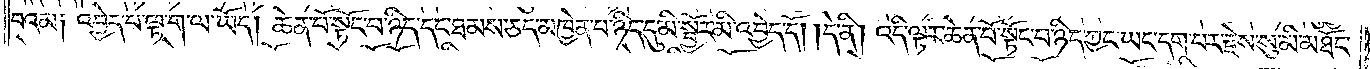བའམ༑ འབྱེད་པ་ལྟ་ག་ལ་ཡོད། ཆེན་པོ་སྟོང་པ་ཉིད་དང་ཐམས་ཅད་མཁྱེན་པ་ཉིད་དུ་མི་སྦྱོར་མི་འབྱེད་དོ། །དེ་ནི། འདི་ལྟར་ཆེན་པོ་སྟོང་པ་ཉིད་ཀྱང་ཡང་དག་པར་རྗེས་སུ་མི་མཐོང་
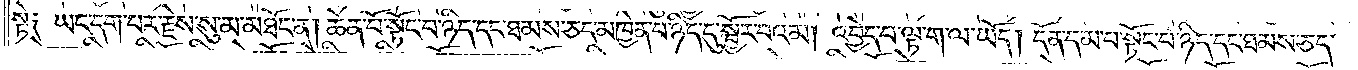སྟེ༑ ཡང་དག་པར་རྗེས་སུ་མ་མཐོང་ན། ཆེན་པོ་སྟོང་པ་ཉིད་དང་ཐམས་ཅད་མཁྱེན་པ་ཉིད་དུ་སྦྱོར་བའམ། འབྱེད་པ་ལྟ་ག་ལ་ཡོད། དོན་དམ་པ་སྟོང་པ་ཉིད་དང་ཐམས་ཅད་
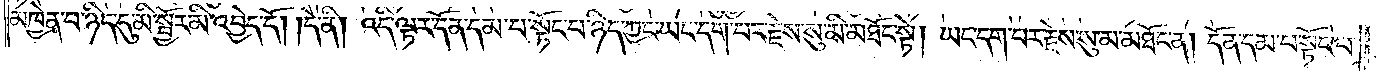མཁྱེན་པ་ཉིད་དུ་མི་སྦྱོར་མི་འབྱེད་དོ། །དེ་ནི། འདི་ལྟར་དོན་དམ་པ་སྟོང་པ་ཉིད་ཀྱང་ཡང་དག་པར་རྗེས་སུ་མི་མཐོང་སྟེ། ཡང་དག་པར་རྗེས་སུ་མ་མཐོང་ན། དོན་དམ་པ་སྟོང་པ་
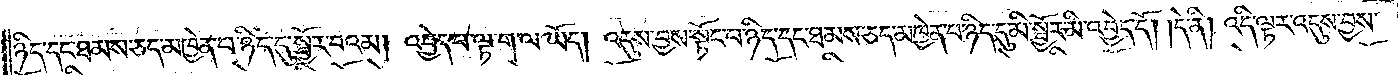ཉིད་དང་ཐམས་ཅད་མཁྱེན་པ་ཉིད་དུ་སྦྱོར་བའམ། འབྱེད་པ་ལྟ་ག་ལ་ཡོད། འདུས་བྱས་སྟོང་པ་ཉིད་དང་ཐམས་ཅད་མཁྱེན་པ་ཉིད་དུ་མི་སྦྱོར་མི་འབྱེད་དོ། །དེ་ནི། འདི་ལྟར་འདུས་བྱས་
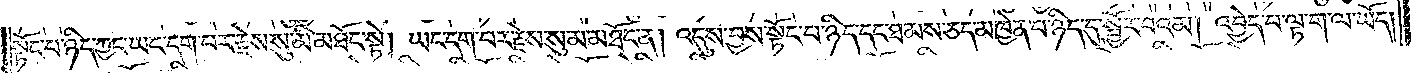སྟོང་པ་ཉིད་ཀྱང་ཡང་དག་པར་རྗེས་སུ་མི་མཐོང་སྟེ། ཡང་དག་པར་རྗེས་སུ་མ་མཐོང་ན། འདུས་བྱས་སྟོང་པ་ཉིད་དང་ཐམས་ཅད་མཁྱེན་པ་ཉིད་དུ་སྦྱོར་བའམ། འབྱེད་པ་ལྟ་ག་ལ་ཡོད།
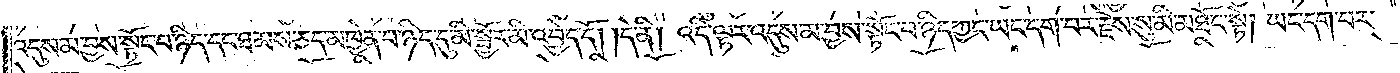འདུས་མ་བྱས་སྟོང་པ་ཉིད་དང་ཐམས་ཅད་མཁྱེན་པ་ཉིད་དུ་མི་སྦྱོར་མི་འབྱེད་དོ། །དེ་ནི། འདི་ལྟར་འདུས་མ་བྱས་སྟོང་པ་ཉིད་ཀྱང་ཡང་དག་པར་རྗེས་སུ་མི་མཐོང་སྟེ། ཡང་དག་པར་
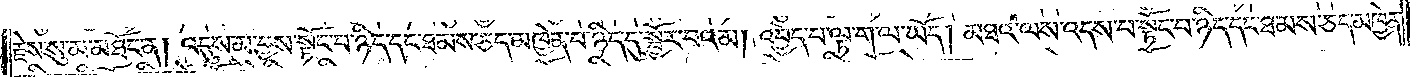རྗེས་སུ་མ་མཐོང་ན། འདུས་མ་བྱས་སྟོང་པ་ཉིད་དང་ཐམས་ཅད་མཁྱེན་པ་ཉིད་དུ་སྦྱོར་བའམ། འབྱེད་པ་ལྟ་ག་ལ་ཡོད། མཐའ་ལས་འདས་པ་སྟོང་པ་ཉིད་དང་ཐམས་ཅད་མཁྱེན་
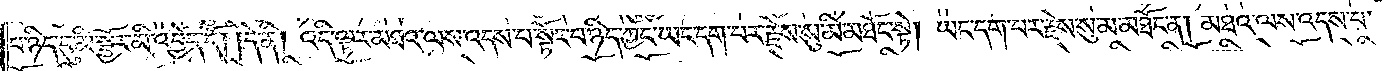པ་ཉིད་དུ་མི་སྦྱོར་མི་འབྱེད་དོ། །དེ་ནི། འདི་ལྟར་མཐའ་ལས་འདས་པ་སྟོང་པ་ཉིད་ཀྱང་ཡང་དག་པར་རྗེས་སུ་མི་མཐོང་སྟེ། ཡང་དག་པར་རྗེས་སུ་མ་མཐོང་ན། མཐའ་ལས་འདས་པ་
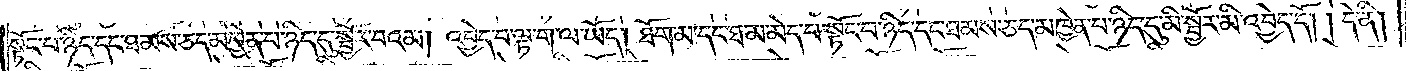སྟོང་པ་ཉིད་དང་ཐམས་ཅད་མཁྱེན་པ་ཉིད་དུ་སྦྱོར་བའམ། འབྱེད་པ་ལྟ་ག་ལ་ཡོད། ཐོག་མ་དང་ཐ་མ་མེད་པ་སྟོང་པ་ཉིད་དང་ཐམས་ཅད་མཁྱེན་པ་ཉིད་དུ་མི་སྦྱོར་མི་འབྱེད་དོ། །དེ་ནི།
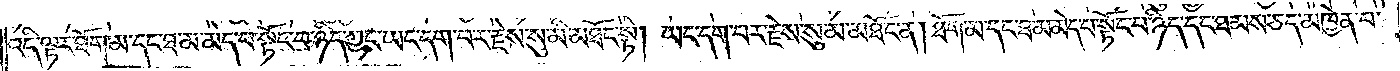འདི་ལྟར་ཐོག་མ་དང་ཐ་མ་མེད་པ་སྟོང་པ་ཉིད་ཀྱང་ཡང་དག་པར་རྗེས་སུ་མི་མཐོང་སྟེ། ཡང་དག་པར་རྗེས་སུ་མ་མཐོང་ན། ཐོག་མ་དང་ཐ་མ་མེད་པ་སྟོང་པ་ཉིད་དང་ཐམས་ཅད་མཁྱེན་པ་
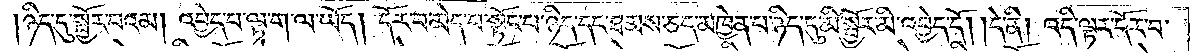ཉིད་དུ་སྦྱོར་བའམ། འབྱེད་པ་ལྟ་ག་ལ་ཡོད། དོར་བ་མེད་པ་སྟོང་པ་ཉིད་དང་ཐམས་ཅད་མཁྱེན་པ་ཉིད་དུ་མི་སྦྱོར་མི་འབྱེད་དོ། །དེ་ནི། འདི་ལྟར་དོར་བ་
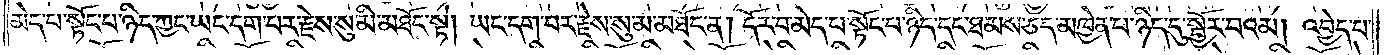མེད་པ་སྟོང་པ་ཉིད་ཀྱང་ཡང་དག་པར་རྗེས་སུ་མི་མཐོང་སྟེ། ཡང་དག་པར་རྗེས་སུ་མ་མཐོང་ན། དོར་བ་མེད་པ་སྟོང་པ་ཉིད་དང་ཐམས་ཅད་མཁྱེན་པ་ཉིད་དུ་སྦྱོར་བའམ། འབྱེད་པ་
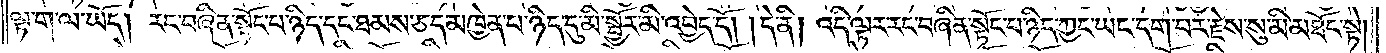ལྟ་ག་ལ་ཡོད། རང་བཞིན་སྟོང་པ་ཉིད་དང་ཐམས་ཅད་མཁྱེན་པ་ཉིད་དུ་མི་སྦྱོར་མི་འབྱེད་དོ། །དེ་ནི། འདི་ལྟར་རང་བཞིན་སྟོང་པ་ཉིད་ཀྱང་ཡང་དག་པར་རྗེས་སུ་མི་མཐོང་སྟེ།
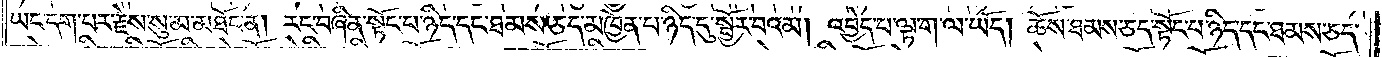ཡང་དག་པར་རྗེས་སུ་མ་མཐོང་ན། རང་བཞིན་སྟོང་པ་ཉིད་དང་ཐམས་ཅད་མཁྱེན་པ་ཉིད་དུ་སྦྱོར་བའམ། འབྱེད་པ་ལྟ་ག་ལ་ཡོད། ཆོས་ཐམས་ཅད་སྟོང་པ་ཉིད་དང་ཐམས་ཅད་
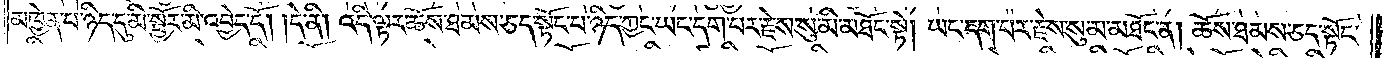མཁྱེན་པ་ཉིད་དུ་མི་སྦྱོར་མི་འབྱེད་དོ། །དེ་ནི། འདི་ལྟར་ཆོས་ཐམས་ཅད་སྟོང་པ་ཉིད་ཀྱང་ཡང་དག་པར་རྗེས་སུ་མི་མཐོང་སྟེ། ཡང་དག་པར་རྗེས་སུ་མ་མཐོང་ན། ཆོས་ཐམས་ཅད་སྟོང་
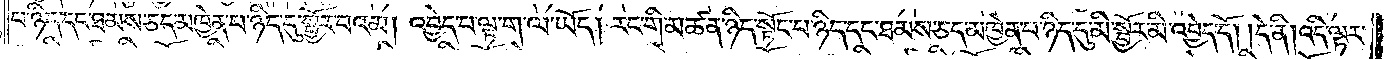པ་ཉིད་དང་ཐམས་ཅད་མཁྱེན་པ་ཉིད་དུ་སྦྱོར་བའམ། འབྱེད་པ་ལྟ་ག་ལ་ཡོད། རང་གི་མཚན་ཉིད་སྟོང་པ་ཉིད་དང་ཐམས་ཅད་མཁྱེན་པ་ཉིད་དུ་མི་སྦྱོར་མི་འབྱེད་དོ། །དེ་ནི། འདི་ལྟར་
